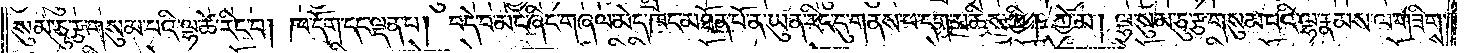སུམ་ཅུ་རྩ་གསུམ་པའི་ལྷ་ཚེ་རིང་བ། ཁ་དོག་དང་ལྡན་པ། བདེ་བ་མང་ཞིང་གཞལ་མེད་ཁང་མཐོན་པོ་ན་ཡུན་རིང་དུ་གནས་པ་དག་མཆིས་ཀྱི། ཀྱེ་མ། ལྷ་སུམ་ཅུ་རྩ་གསུམ་པའི་ལྷ་རྣམས་ལ་གཟིགས་
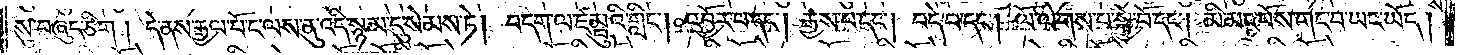སུ་བཞུད་ཅིག །དེ་ནས་རྒྱལ་པོ་ང་ལས་ནུ་འདི་སྙམ་དུ་སེམས་ཏེ། བདག་ལ་ཛམྦུའི་གླིང༌། འབྱོར་བ་དང༌། རྒྱས་པ་དང༌། བདེ་བ་དང༌། ལོ་ལེགས་པ་སྐྱེ་བོ་དང༌། མི་མང་པོས་གང་བ་ཡང་ཡོད།
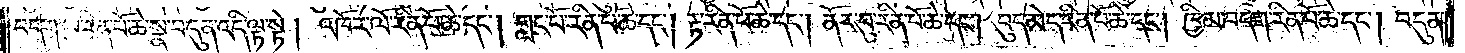བདག་ལ་རིན་པོ་ཆེ་སྣ་བདུན་འདི་ལྟ་སྟེ། འཁོར་ལོ་རིན་པོ་ཆེ་དང༌། གླང་པོ་རིན་པོ་ཆེ་དང༌། རྟ་རིན་པོ་ཆེ་དང༌། ནོར་བུ་རིན་པོ་ཆེ་དང༌། བུད་མེད་རིན་པོ་ཆེ་དང༌། ཁྱིམ་བདག་རིན་པོ་ཆེ་དང༌། བདུན་
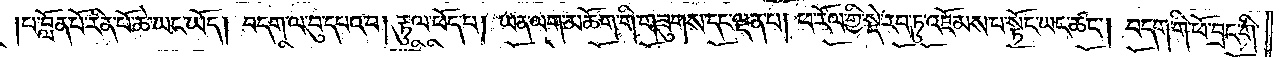པ་བློན་པོ་རིན་པོ་ཆེ་ཡང་ཡོད། བདག་ལ་བུ་དཔའ་བ། རྟུལ་ཕོད་པ། ཡན་ལག་མཆོག་གི་གཟུགས་དང་ལྡན་པ། ཕ་རོལ་གྱི་སྡེ་རབ་ཏུ་འཇོམས་པ་སྟོང་ཡང་ཚང༌། བདག་གི་ཕོ་བྲང་གི་
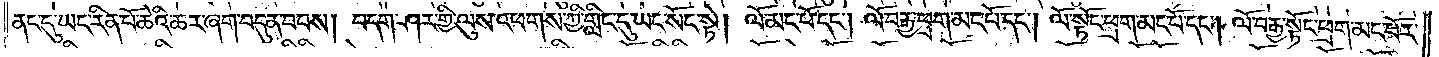ནང་དུ་ཡང་རིན་པོ་ཆེའི་ཆར་ཞག་བདུན་བབས། བདག་ཤར་གྱི་ལུས་འཕགས་ཀྱི་གླིང་དུ་ཡང་སོང་སྟེ། ལོ་མང་པོ་དང༌། ལོ་བརྒྱ་ཕྲག་མང་པོ་དང༌། ལོ་སྟོང་ཕྲག་མང་པོ་དང༌། ལོ་བརྒྱ་སྟོང་ཕྲག་མང་པོར་
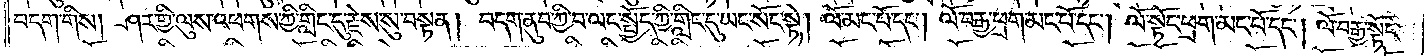བདག་གིས། ཤར་གྱི་ལུས་འཕགས་ཀྱི་གླིང་དུ་རྗེས་སུ་བསྟན། བདག་ནུབ་ཀྱི་བ་ལང་སྤྱོད་ཀྱི་གླིང་དུ་ཡང་སོང་སྟེ། ལོ་མང་པོ་དང༌། ལོ་བརྒྱ་ཕྲག་མང་པོ་དང༌། ལོ་སྟོང་ཕྲག་མང་པོ་དང༌། ལོ་བརྒྱ་སྟོང་
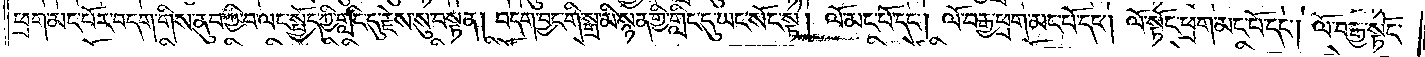ཕྲག་མང་པོར་བདག་གིས་ནུབ་ཀྱི་བ་ལང་སྤྱོད་ཀྱི་གླིང་དུ་རྗེས་སུ་བསྟན། བདག་བྱང་གི་སྒྲ་མི་སྙན་གྱི་གླིང་དུ་ཡང་སོང་སྟེ། ལོ་མང་པོ་དང༌། ལོ་བརྒྱ་ཕྲག་མང་པོ་དང༌། ལོ་སྟོང་ཕྲག་མང་པོ་དང༌། ལོ་བརྒྱ་སྟོང་
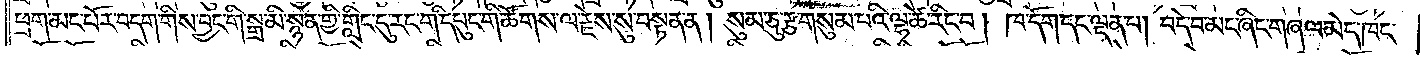ཕྲག་མང་པོར་བདག་གིས་བྱང་གི་སྒྲ་མི་སྙན་གྱི་གླིང་དུ་རང་གི་དཔུང་གི་ཚོགས་ལ་རྗེས་སུ་བསྟན་ན། སུམ་ཅུ་རྩ་གསུམ་པའི་ལྷ་ཚེ་རིང་བ། ཁ་དོག་དང་ལྡན་པ། བདེ་བ་མང་ཞིང་གཞལ་མེད་ཁང་
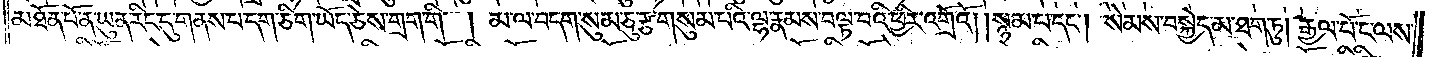མཐོན་པོ་ན་ཡུན་རིང་དུ་གནས་པ་དག་ཅིག་ཡོད་ཅེས་གྲག་གི །མ་ལ་བདག་སུམ་ཅུ་རྩ་གསུམ་པའི་ལྷ་རྣམས་བལྟ་བའི་ཕྱིར་འགྲོའོ། །སྙམ་པ་དང༌། སེམས་བསྐྱེད་མ་ཐག་ཏུ། རྒྱལ་པོ་ང་ལས་
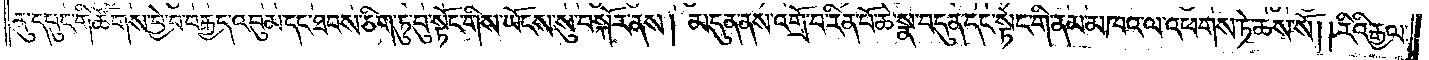ནུ་དཔུང་གི་ཚོགས་བྱེ་བ་བརྒྱད་འབུམ་དང་ཐབས་ཅིག་ཏུ་བུ་སྟོང་གིས་ཡོངས་སུ་བསྐོར་ནས། མདུན་ནས་འགྲོ་བ་རིན་པོ་ཆེ་སྣ་བདུན་དང་སྟེང་གི་ནམ་མཁའ་ལ་འཕགས་ཏེ་ཆས་སོ། །རིའི་རྒྱལ་
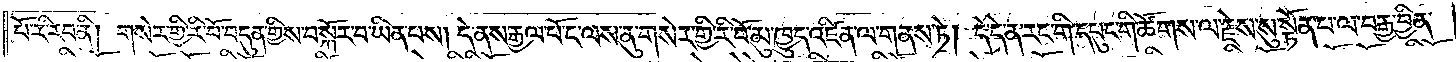པོ་རི་རབ་ནི། གསེར་གྱི་རི་བོ་བདུན་གྱིས་བསྐོར་བ་ཡིན་པས། དེ་ནས་རྒྱལ་པོ་ང་ལས་ནུ་གསེར་གྱི་རི་བོ་མུ་ཁྱུད་འཛིན་ལ་གནས་ཏེ། དེ་དེ་ན་རང་གི་དཔུང་གི་ཚོགས་ལ་རྗེས་སུ་སྟོན་པ་ལ་བརྒྱ་བྱིན་
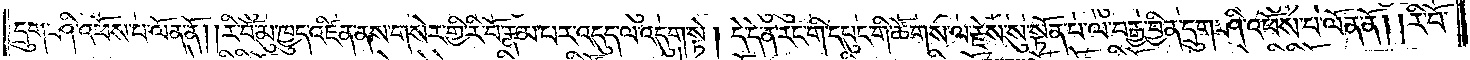དྲུག་ཤི་འཕོས་པ་ལོན་ནོ། །རི་བོ་མུ་ཁྱུད་འཛིན་ནས་གསེར་གྱི་རི་བོ་རྣམ་པར་འདུད་ལ་འདུག་སྟེ། དེ་དེ་ན་རང་གི་དཔུང་གི་ཚོགས་ལ་རྗེས་སུ་སྟོན་པ་ལ་བརྒྱ་བྱིན་དྲུག་ཤི་འཕོས་པ་ལོན་ནོ། །རི་བོ་
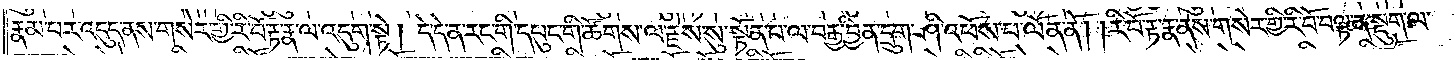རྣམ་པར་འདུད་ནས་གསེར་གྱི་རི་བོ་རྟ་རྣ་ལ་འདུག་སྟེ། དེ་དེ་ན་རང་གི་དཔུང་གི་ཚོགས་ལ་རྗེས་སུ་སྟོན་པ་ལ་བརྒྱ་བྱིན་དྲུག་ཤི་འཕོས་པ་ལོན་ནོ། །རི་བོ་རྟ་རྣ་ནས་གསེར་གྱི་རི་བོ་བལྟ་ན་སྡུག་ལ་
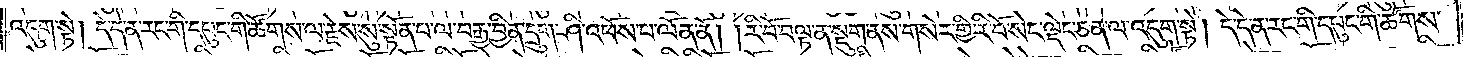འདུག་སྟེ། དེ་དེ་ན་རང་གི་དཔུང་གི་ཚོགས་ལ་རྗེས་སུ་སྟོན་པ་ལ་བརྒྱ་བྱིན་དྲུག་ཤི་འཕོས་པ་ལོན་ནོ། །རི་བོ་བལྟ་ན་སྡུག་ནས་གསེར་གྱི་རི་བོ་སེང་ལྡེང་ཅན་ལ་འདུག་སྟེ། དེ་དེ་ན་རང་གི་དཔུང་གི་ཚོགས་
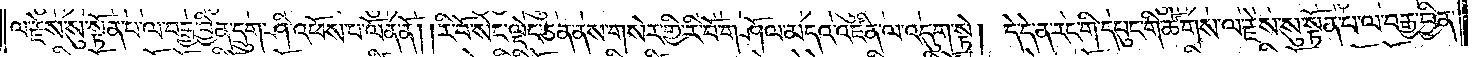ལ་རྗེས་སུ་སྟོན་པ་ལ་བརྒྱ་བྱིན་དྲུག་ཤི་འཕོས་པ་ལོན་ནོ། །རི་བོ་སེང་ལྡེང་ཅན་ནས་གསེར་གྱི་རི་བོ་གཤོལ་མདའ་འཛིན་ལ་འདུག་སྟེ། དེ་དེ་ན་རང་གི་དཔུང་གི་ཚོགས་ལ་རྗེས་སུ་སྟོན་པ་ལ་བརྒྱ་བྱིན་
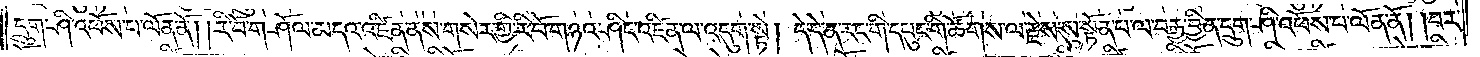དྲུག་ཤི་འཕོས་པ་ལོན་ནོ། །རི་བོ་གཤོལ་མདའ་འཛིན་ནས་གསེར་གྱི་རི་བོ་གཉའ་ཤིང་འཛིན་ལ་འདུག་སྟེ། དེ་དེ་ན་རང་གི་དཔུང་གི་ཚོགས་ལ་རྗེས་སུ་སྟོན་པ་ལ་བརྒྱ་བྱིན་དྲུག་ཤི་འཕོས་པ་ལོན་ནོ། །བར་
